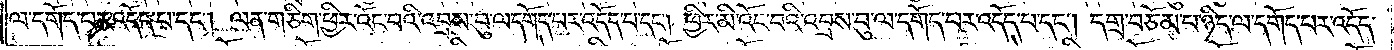ལ་དགོད་པར་འདོད་པ་དང༌། ལན་གཅིག་ཕྱིར་འོང་བའི་འབྲས་བུ་ལ་དགོད་པར་འདོད་པ་དང༌། ཕྱིར་མི་འོང་བའི་འབྲས་བུ་ལ་དགོད་པར་འདོད་པ་དང༌། དགྲ་བཅོམ་པ་ཉིད་ལ་དགོད་པར་འདོད་
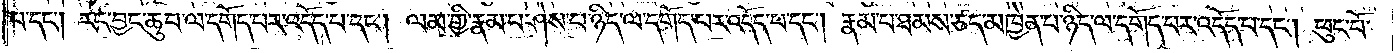པ་དང༌། རང་བྱང་ཆུབ་ལ་དགོད་པར་འདོད་པ་དང༌། ལམ་གྱི་རྣམ་པ་ཤེས་པ་ཉིད་ལ་དགོད་པར་འདོད་པ་དང༌། རྣམ་པ་ཐམས་ཅད་མཁྱེན་པ་ཉིད་ལ་དགོད་པར་འདོད་པ་དང༌། ཕུང་པོ་
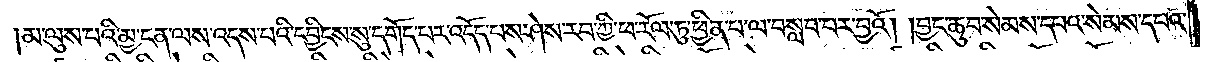མ་ལུས་པའི་མྱ་ངན་ལས་འདས་པའི་དབྱིངས་སུ་དགོད་པར་འདོད་པས་ཤེས་རབ་ཀྱི་ཕ་རོལ་ཏུ་ཕྱིན་པ་ལ་བསླབ་པར་བྱའོ། །བྱང་ཆུབ་སེམས་དཔའ་སེམས་དཔའ་
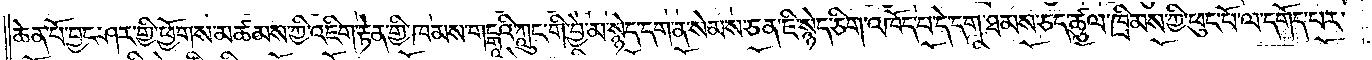ཆེན་པོ་བྱང་ཤར་གྱི་ཕྱོགས་མཚམས་ཀྱི་འཇིག་རྟེན་གྱི་ཁམས་གངྒཱའི་ཀླུང་གི་བྱེ་མ་སྙེད་དག་ན་སེམས་ཅན་ཇི་སྙེད་ཅིག་འཁོད་པ་དེ་དག་ཐམས་ཅད་ཚུལ་ཁྲིམས་ཀྱི་ཕུང་པོ་ལ་དགོད་པར་
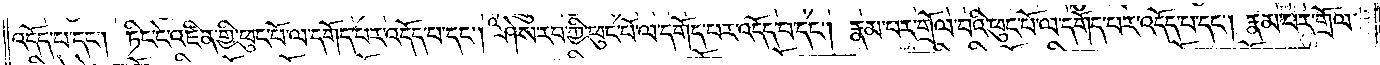འདོད་པ་དང༌། ཏིང་ངེ་འཛིན་གྱི་ཕུང་པོ་ལ་དགོད་པར་འདོད་པ་དང༌། ཤེས་རབ་ཀྱི་ཕུང་པོ་ལ་དགོད་པར་འདོད་པ་དང༌། རྣམ་པར་གྲོལ་བའི་ཕུང་པོ་ལ་དགོད་པར་འདོད་པ་དང༌། རྣམ་པར་གྲོལ་
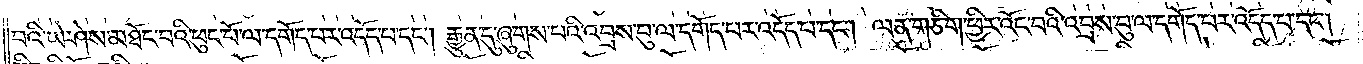བའི་ཡེ་ཤེས་མཐོང་བའི་ཕུང་པོ་ལ་དགོད་པར་འདོད་པ་དང༌། རྒྱུན་དུ་ཞུགས་པའི་འབྲས་བུ་ལ་དགོད་པར་འདོད་པ་དང༌། ལན་གཅིག་ཕྱིར་འོང་བའི་འབྲས་བུ་ལ་དགོད་པར་འདོད་པ་དང༌།
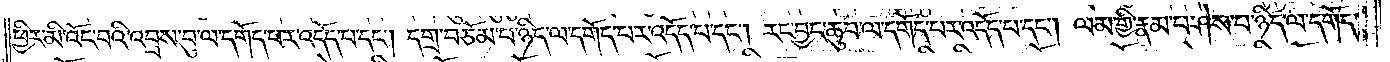ཕྱིར་མི་འོང་བའི་འབྲས་བུ་ལ་དགོད་པར་འདོད་པ་དང༌། དགྲ་བཅོམ་པ་ཉིད་ལ་དགོད་པར་འདོད་པ་དང༌། རང་བྱང་ཆུབ་ལ་དགོད་པར་འདོད་པ་དང༌། ལམ་གྱི་རྣམ་པ་ཤེས་པ་ཉིད་ལ་དགོད་
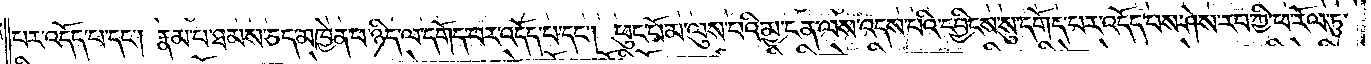པར་འདོད་པ་དང༌། རྣམ་པ་ཐམས་ཅད་མཁྱེན་པ་ཉིད་ལ་དགོད་པར་འདོད་པ་དང༌། ཕུང་པོ་མ་ལུས་པའི་མྱ་ངན་ལས་འདས་པའི་དབྱིངས་སུ་དགོད་པར་འདོད་པས་ཤེས་རབ་ཀྱི་ཕ་རོལ་ཏུ་
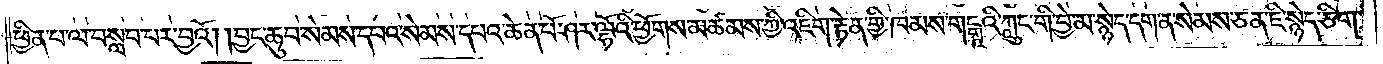ཕྱིན་པ་ལ་བསླབ་པར་བྱའོ། །བྱང་ཆུབ་སེམས་དཔའ་སེམས་དཔའ་ཆེན་པོ་ཤར་ལྷོའི་ཕྱོགས་མཚམས་ཀྱི་འཇིག་རྟེན་གྱི་ཁམས་གངྒཱའི་ཀླུང་གི་བྱེ་མ་སྙེད་དག་ན་སེམས་ཅན་ཇི་སྙེད་ཅིག་
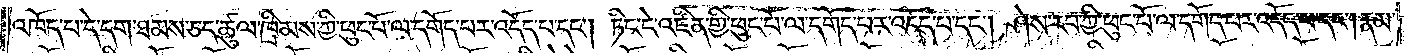འཁོད་པ་དེ་དག་ཐམས་ཅད་ཚུལ་ཁྲིམས་ཀྱི་ཕུང་པོ་ལ་དགོད་པར་འདོད་པ་དང༌། ཏིང་ངེ་འཛིན་གྱི་ཕུང་པོ་ལ་དགོད་པར་འདོད་པ་དང༌། ཤེས་རབ་ཀྱི་ཕུང་པོ་ལ་དགོད་པར་འདོད་པ་དང༌། རྣམ་
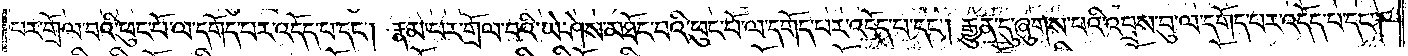པར་གྲོལ་བའི་ཕུང་པོ་ལ་དགོད་པར་འདོད་པ་དང༌། རྣམ་པར་གྲོལ་བའི་ཡེ་ཤེས་མཐོང་བའི་ཕུང་པོ་ལ་དགོད་པར་འདོད་པ་དང༌། རྒྱུན་དུ་ཞུགས་པའི་འབྲས་བུ་ལ་དགོད་པར་འདོད་པ་དང༌།
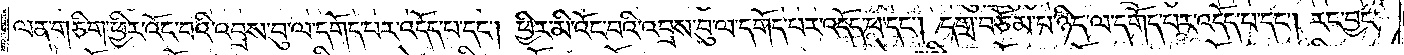ལན་གཅིག་ཕྱིར་འོང་བའི་འབྲས་བུ་ལ་དགོད་པར་འདོད་པ་དང༌། ཕྱིར་མི་འོང་བའི་འབྲས་བུ་ལ་དགོད་པར་འདོད་པ་དང༌། དགྲ་བཅོམ་པ་ཉིད་ལ་དགོད་པར་འདོད་པ་དང༌། རང་བྱང་
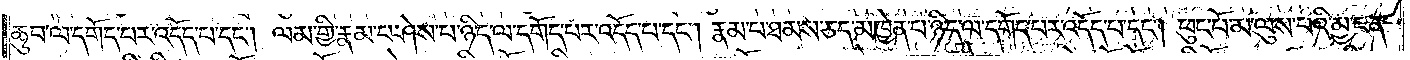ཆུབ་ལ་དགོད་པར་འདོད་པ་དང༌། ལམ་གྱི་རྣམ་པ་ཤེས་པ་ཉིད་ལ་དགོད་པར་འདོད་པ་དང༌། རྣམ་པ་ཐམས་ཅད་མཁྱེན་པ་ཉིད་ལ་དགོད་པར་འདོད་པ་དང༌། ཕུང་པོ་མ་ལུས་པའི་མྱ་ངན་
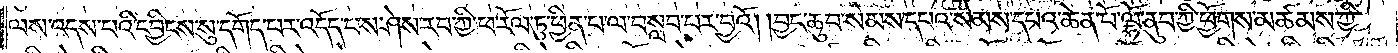ལས་འདས་པའི་དབྱིངས་སུ་དགོད་པར་འདོད་པས་ཤེས་རབ་ཀྱི་ཕ་རོལ་ཏུ་ཕྱིན་པ་ལ་བསླབ་པར་བྱའོ། །བྱང་ཆུབ་སེམས་དཔའ་སེམས་དཔའ་ཆེན་པོ་ལྷོ་ནུབ་ཀྱི་ཕྱོགས་མཚམས་ཀྱི་
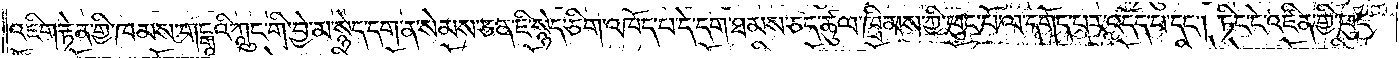འཇིག་རྟེན་གྱི་ཁམས་གངྒཱའི་ཀླུང་གི་བྱེ་མ་སྙེད་དག་ན་སེམས་ཅན་ཇི་སྙེད་ཅིག་འཁོད་པ་དེ་དག་ཐམས་ཅད་ཚུལ་ཁྲིམས་ཀྱི་ཕུང་པོ་ལ་དགོད་པར་འདོད་པ་དང༌། ཏིང་ངེ་འཛིན་གྱི་ཕུང་
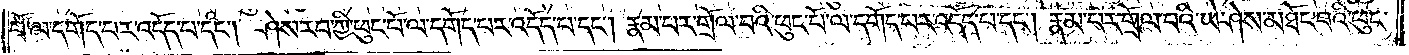པོ་ལ་དགོད་པར་འདོད་པ་དང༌། ཤེས་རབ་ཀྱི་ཕུང་པོ་ལ་དགོད་པར་འདོད་པ་དང༌། རྣམ་པར་གྲོལ་བའི་ཕུང་པོ་ལ་དགོད་པར་འདོད་པ་དང༌། རྣམ་པར་གྲོལ་བའི་ཡེ་ཤེས་མཐོང་བའི་ཕུང་
